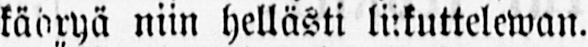kääryä niin hellästi liikuttelewan.
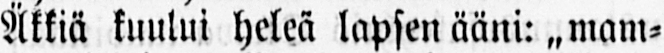Äkkiä kuului heleä lapsen ääni: „mam-
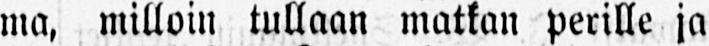ma, milloin tullaan matkan perille ja
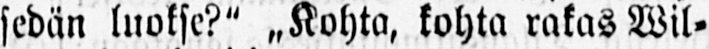sedän luokse?" „Kohta, kohta rakas Wil-
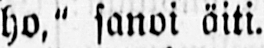ho," sanoi äiti.
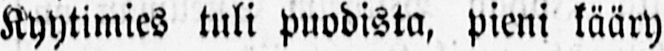Kyytimies tuli puodista, pieni kääry
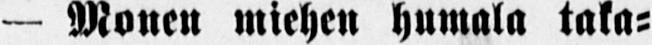— Monen miehen humala taka-
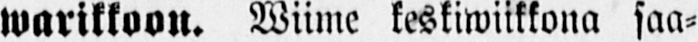warikkoon. Wiime keskiwiikkona saa-
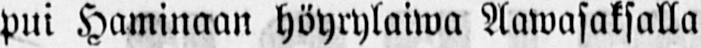pui Haminaan höyrylaiwa Aawasaksalla
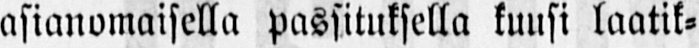asianomaisella passituksella kuusi laatik-
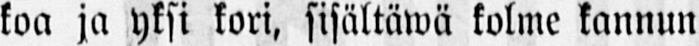koa ja yksi kori, sisältäwä kolme kannun
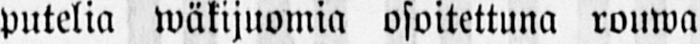putelia wäkijuomia osoitettuna rouwa
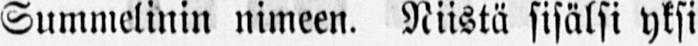Summelinin nimeen. Niistä sisälsi yksi
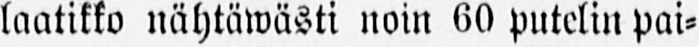laatikko nähtäwästi noin 60 putelin pai-
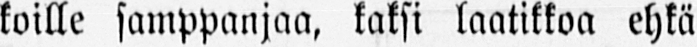koille samppanjaa, kaksi laatikkoa ehkä
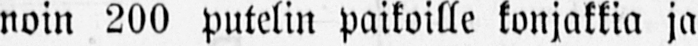noin 200 putelin paikoille konjakkia ja
